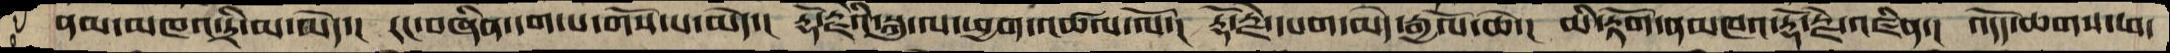ནམ་མཁའ་དྲི་མ་མེད་། རང་བཞིན་དག་པ་གོས་པ་མེད་། རྡོ་རྗེའི་སྐུ་ལ་ཕྱག་འཚལ་ལོ་། རྡོ་རྗེ་དཔག་མེད་རྒྱལོ་ཆེ་། མི་རྟོག་ནམཁའ་རྡོ་རྗེ་འཛིན་། འདོད་ཆགས་ཕ་
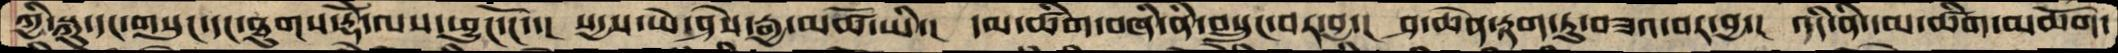ཀྱི་སྐུ་དང་གསུང་དང་ཐུགས་རྡོེ་ལས་ཕྱུང་ངོ་་།  སདྱས་ཡེ་ཤེས་རྒྱ་མཚོ་ཡི་།  དམ་ཚིག་བཞི་ནི་བསྲུང་བར་བྱ་།  ཤ་ཆེན་རྟག་ཏུ་བཟའ་བར་བྱ་།  འདི་ནི་དམ་ཚིག་མཆོག་
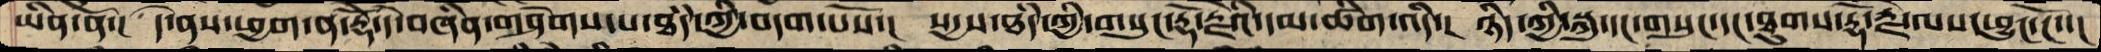ཡིན་ནོ་།  དེ་ནས་ཕྱག་ན་རྡོེ་དེ་བཞིན་གཤེགས་པ་ཐཾད་ཀྱི་བདག་པོས་།  སདྱས་ཐཾད་ཀྱི་གསུང་རྡོ་རྗེའི་དམ་ཚིག་འདི་།  ཉིད་ཀྱི་སྐུ་དང་གསུང་དང་ཐུགས་རྡོ་རྗེ་ལས་ཕྱུང་ངོ་་།
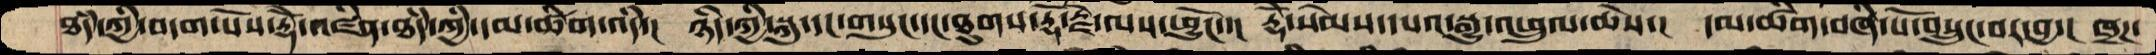ཐཾད་ཀྱི་བདག་པོས་རྡོེ་འཛིན་ཐཾད་ཀྱི་དམ་ཚིག་འདི་།  ཉིད་ཀྱི་སྐུ་དང་གསུང་དང་ཐུགས་རྡོ་རྗེ་ལས་ཕྱུངོ་་།  རྡོེ་སེམས་དཔའ་སྒྱུ་འཕྲུལ་ཆེས་།  དམ་ཚིག་བཞི་པོ་བསྲུང་བར་བྱ་།  ཁྲཌ་
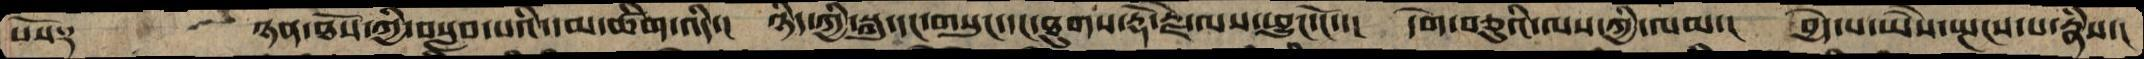པོས༑  ཉན་ཐོས་ཀྱི་བསླབ་པའི་དམ་ཚིག་འདི་།  ཉིད་ཀྱི་སྐུ་དང་གསུང་དང་ཐུགས་རྡོ་རྗེ་ལས་ཕྱུང་ངོ་་།  དགེ་བཅུའི་ལས་ཀྱི་ལམ་།  བྱེད་པ་ཡཻས་སྤངས་པ་རྣཾས་
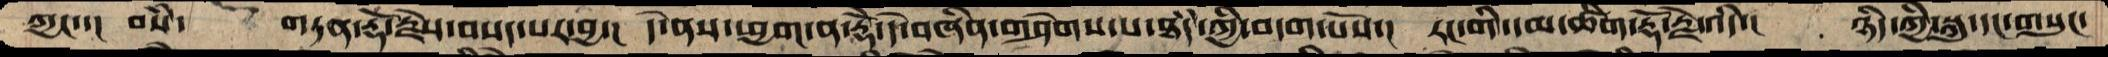ཀྱང་་།  བསཾ་    གཏན་རྡོ་རྗེས་བསད་པར་བྱ་།  དེ་ནས་ཕྱག་ན་རྡོེ་དེ་བཞིན་གཤེགས་པ་ཐཾད་ཀྱི་བདག་པོས་།  རང་གི་དམ་ཚིག་རྡོ་རྗེ་འདི་།  ཉིད་ཀྱི་སྐུ་དང་གསུང་
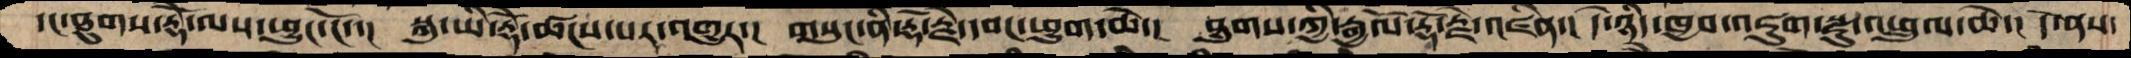དང་ཐུགས་རྡོེ་ལས་བྱུང་ངོ་་།  སྐུ་ཡི་རྡོེ་ཚངས་པར་འགྱུར་།  གསུང་ནི་རྡོ་རྗེ་དབང་ཕྱུག་ཆེ་།  ཐུགས་ཀྱི་རྒྱལོ་རྡོ་རྗེ་འཛིན་།  དེ་ཉིད་ཁྱབ་འཇུག་སྫུ་འཕྲུལ་ཆེ་།  དེ་ནས་
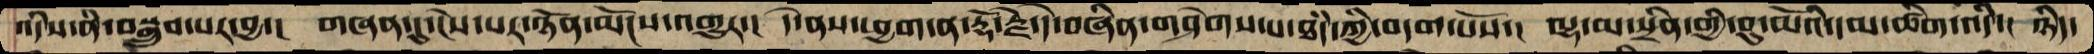འདིས་ནི་བསྒྲུབ་པར་བྱ་།  གཞན་དུ་ངེས་པར་ཉོན་མོངས་འགྱུར་།  དེ་ནས་ཕྱག་ན་རྡོ་རྗེ་དེ་བཞིན་གཤེགས་པ་ཐཾད་ཀྱི་བདག་པོས་།  ལྷ་མ་སྲིན་གྱི་བུ་མོའི་དམ་ཚིག་འདི་།  ཉིད་
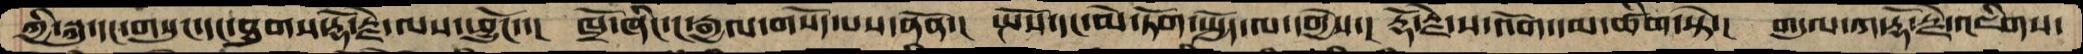ཀྱི་སྐུ་དང་གསུང་དང་ཐུགས་རྡོ་རྗེ་ལས་ཕྱུངོ་་།  ཁྲོ་ཞིང་ང་རྒྱལ་གསོད་པས་ནོན་།  སྤོས་དང་མེ་ཏོག་སྤྱོད་ལ་དགྱེས་།  རྡོ་རྗེ་ས་འོག་དམ་ཚིག་སྟེ་།  གདུལ་ཀ་རྡོ་རྗེ་འཇིགས་
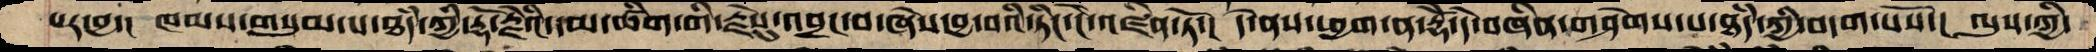པར་བྱ་།  ཁམས་གསུམ་པ་ཐཾད་ཀྱི་རྡོ་རྗེའི་དམ་ཚིག་གི་རྗེསུ་འབྲང་བ་ཞེས་བྱ་བའི་ཏིང་ངེ་འཛིན་ཏོ་།  དེ་ནས་ཕྱག་ན་རྡོེ་དེ་བཞིན་གཤེགས་པ་ཐཾད་ཀྱི་བདག་པོས་།  ལུས་ཀྱི་
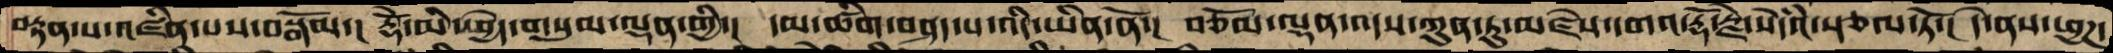བརྟན་པ་འཛིན་པས་བསྒོམ་།  རྡོེ་མི་ཕྱེད་གསུམ་ལྡན་གྱི་།  དམ་ཚིག་བཤད་པ་འདི་ཡིན་ནོ་།  བཅོམ་ལྡན་འདས་ཀུན་ཏུ་མཛེས་དགའ་རྡོ་རྗེ་སེཾདའ་སྩལ་ཏོ་།  དེ་ནས་ཕྱཌ་
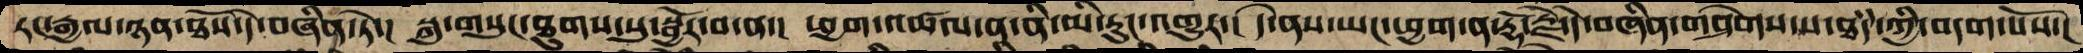རང་རྒྱལ་ཉན་ཐོས་དེ་བཞིན་ཏེ་།  སྐུ་གསུང་ཐུགས་སུ་སྦྱོར་བ་ན་།  ཕྱག་འཚལ་ན་ནི་མི་རུང་འགྱུར་། དེ་ནས་ཡང་ཕྱག་ན་རྡོ་རྗེ་དེ་བཞིན་གཤེགས་པ་ཐཾད་ཀྱི་བདག་པོས་།
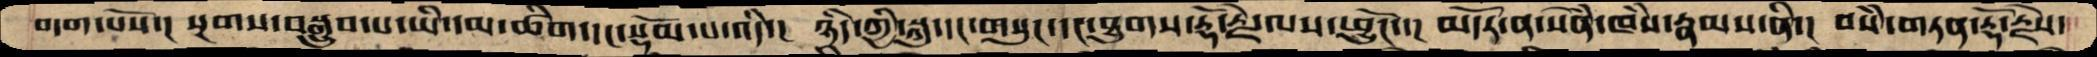བདག་པོས་།  སྔགས་བསྒྲུབ་པ་ལ་ཡི་དམ་ཚིག་དང་སྡོམ་པ་འདི་།  ཉིད་ཀྱི་སྐུ་དང་གསུང་དང་ཐུགས་རྡོ་རྗེ་ལས་ཕྱུངོ་་།  མདོར་ན་སེཾན་ཁཾས་རྣམས་ནི་།  བསཾ་གཏན་རྡོ་རྗེས་
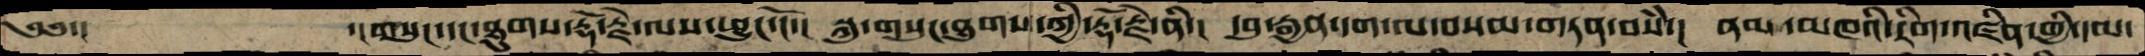༄༅་།    ་།གསུང་དང་ཐུགས་རྡོ་རྗེ་ལས་ཕྱུང་ངོ་་།  སྐུ་གསུང་ཐུགས་ཀྱི་རྡོ་རྗེ་ནི་།  དབུ་རྒྱན་དག་ལ་བསམ་གཏན་བསཾ་།  ནམ་མཁའི་རིག་འཛིན་གྱི་དམ་
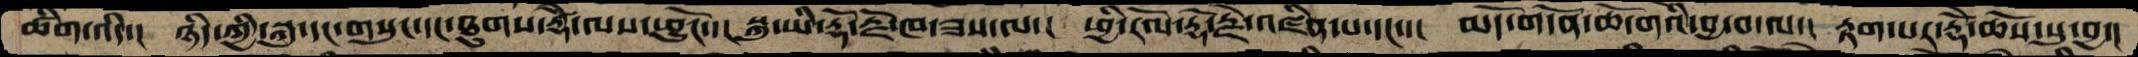ཚིག་འདི་།  ཉིད་ཀྱི་སྐུ་དང་གསུང་དང་ཐུགས་རྡོེ་ལས་ཕྱུངོ་་།  སྐུ་ཡི་རྡོ་རྗེ་ཁ་ཟས་ལ་།  ཕྱི་རོལ་རྡོ་རྗེ་འཛིན་པ་དང་་།  མདོ་གདོན་ཆོ་གའི་བྱ་བ་ལ་།  རྟག་པར་རྡོེ་ཆོས་སུ་བྱ་།
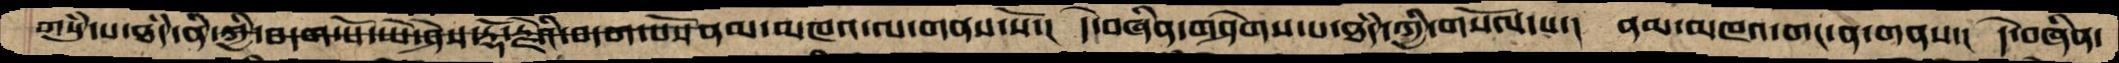གསུཾ་པ་ཐཾད་ནི་ཀྱི་བདག་པོ་ཡེ་ཤེས་རྡོ་རྗེའི་བདག་པོས་ནམ་མཁའ་ལ་གནས་སོ་།  དེ་བཞིན་གཤེགས་པ་ཐཾད་ཀྱི་གསོལ་པ་།  ནམ་མཁའ་གང་ན་གནས་།  དེ་བཞིན་
